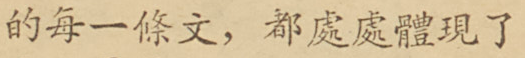的每一條文，都處處體現了
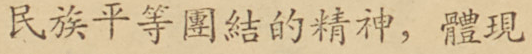民族平等團結的精神，體現
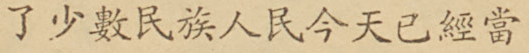了少數民族人民今天已經當
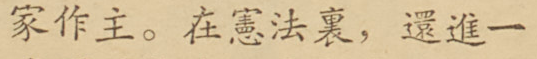家作主。在憲法裏，還進一
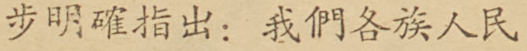步明確指出：我們各族人民
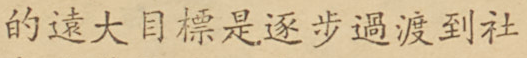的遠大目標是逐步過渡到社
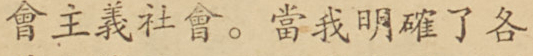會主義社會。當我們明確了各
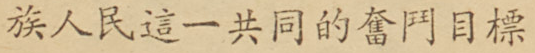族人民這一共同的奮鬥目標
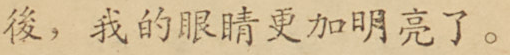後，我的眼睛更加明亮了。
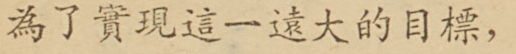為了實現這一遠大的目標，
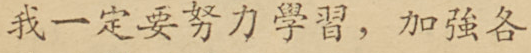我一定要努力學習，加強各
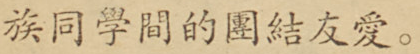族同學間的團結友愛。
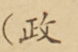（政
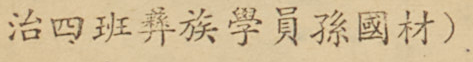治四班彝族學員孫國材）
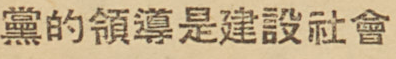黨的領導是建設社會
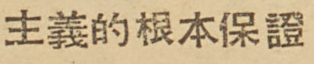主義的根本保證
